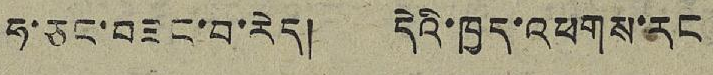ཧ་ཅང་བཟང་བ་རེད། དེའི་ཁྱད་འཕགས་རང
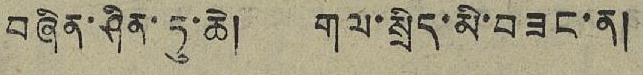བཞིན་ཤིན་ཏུ་ཆེ། གལ་སྲིད་མི་བཟང་ན།
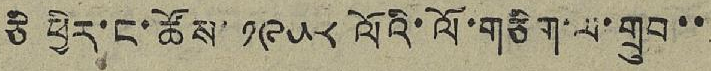ཅི་ཕྱིར་ང་ཚོས་ ༡༩༥༨ ལོའི་ལོ་གཅིག་ལ་གྲུབ་་
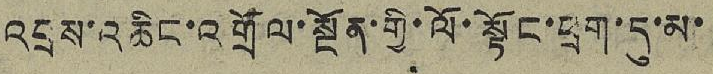འབྲས་འཆིང་འགྲོལ་སྔོན་གྱི་ལོ་སྟོང་ཕྲག་དུ་མ་
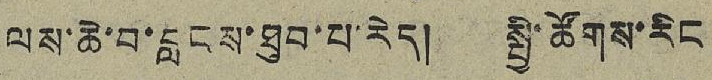ལས་ཆེ་བ་བླངས་ཐུབ་པ་རེད། སྤྱི་ཚོགས་རིང
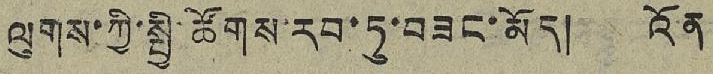ལུགས་ཀྱི་སྤྱི་ཚོགས་རབ་ཏུ་བཟང་མོད། འོན
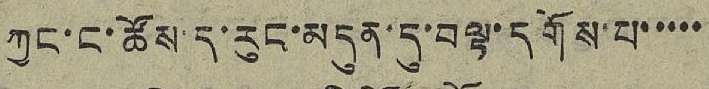ཀྱང་ང་ཚོས་ད་རུང་མདུན་དུ་བལྟ་དགོས་པ་་་་་
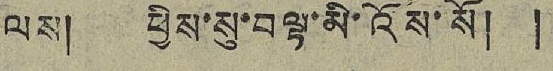ལས། ཕྱིས་སུ་བལྟ་མི་འོས་སོ། །
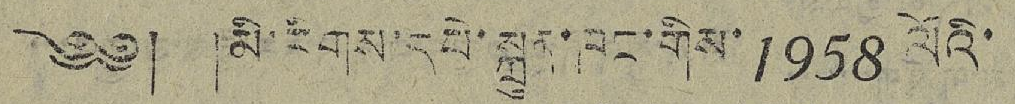༄༅། །མི་རིགས་དཔེ་སྐྲུན་ཁང་གིས་1958 ལོའི་
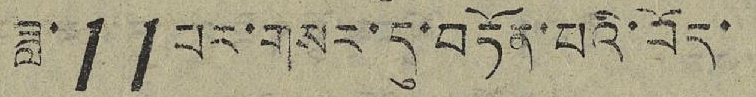ཟླ་11པར་གསར་དུ་བཏོན་པའི་བོད་
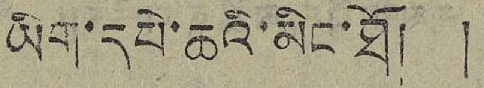ཡིག་དཔེ་ཆའི་མིང་ཐོ། །
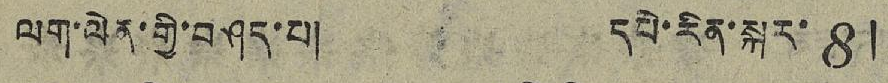ལག་ལེན་གྱི་བཤད་པ། དཔེ་རིང་སྐར་ 8།
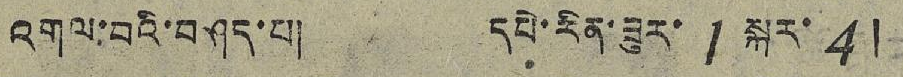འགལ་བའི་བཤད་པ། དཔེ་རིན་ཟུར་1སྐར་ 4།
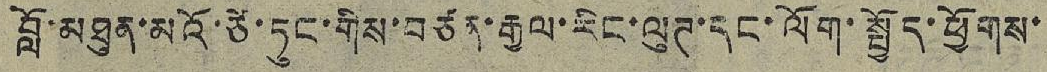བློ་མཐུན་མའོ་ཙེ་ཏུང་གིས་བཙན་རྒྱལ་རིང་ལུཊ་དང་ལོག་སྤྱོད་ཕྱོགས་
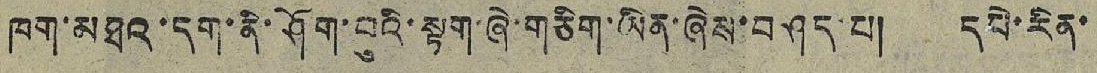ཁག་མཐའ་དག་ནི་ཤོག་བུའི་སྟག་ཞེ་གཅིག་ཡིན་ཞེས་བཤད་པ། དཔེ་རིན་
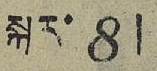སྐར་ 8།
